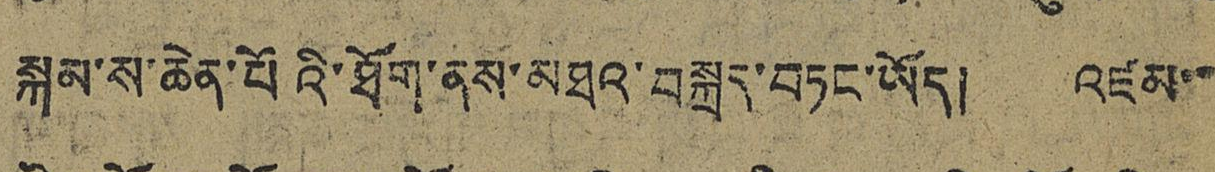སྐམ་ས་ཆེན་པོའི་ཐོག་ནས་མཐའ་བསྐྲད་བཏང་ཡོད། འཛམ་་
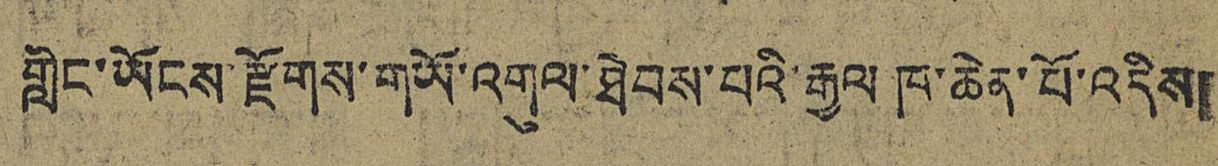གླིང་ཡོངས་རྫོགས་གཡོ་འགུལ་ཐེབས་པའི་རྒྱལ ཁ་ཆེན་པོ་འདིས།
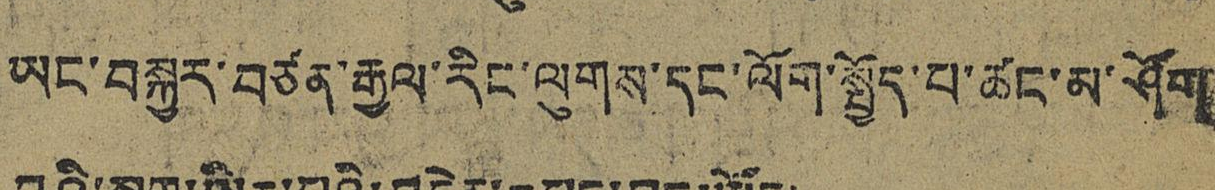ཡང་བསྐྱར་བཙན་རྒྱལ་རིང་ལུགས་དང་ལོག་སྤྱོད་པ་ཚང་མ་ཤོག་
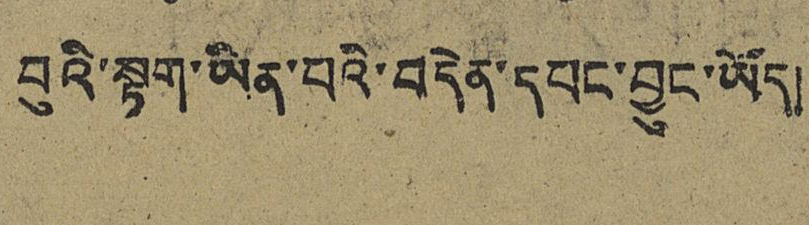བུའི་སྟག་ཡིན་པའི་བདེན་དཔང་བྱུང་ཡོད།
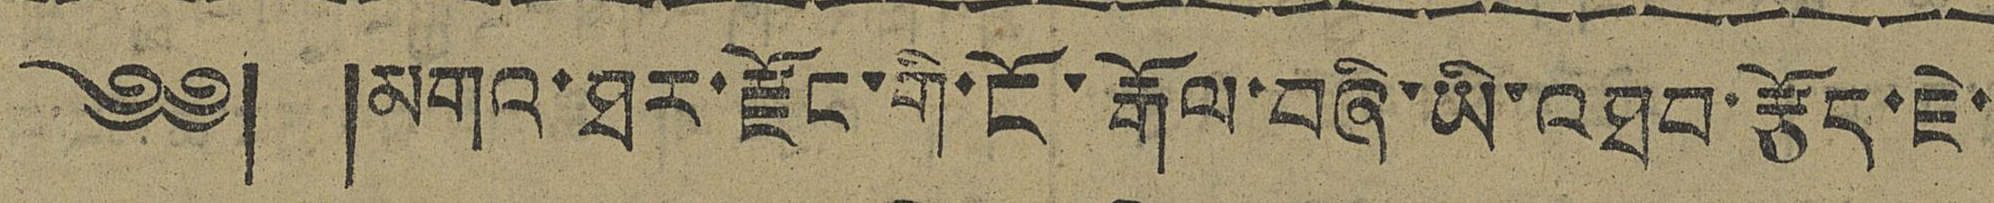༄༅། །མགའ་ཐར་རྫོང་གི་ངོ་རྒོལ་བཞི་ཡི་འཐབ་རྩོད་ཇེ་
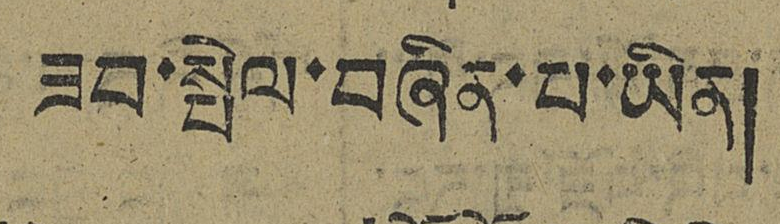ཟབ་སྤེལ་བཞིན་པ་ཡིན།
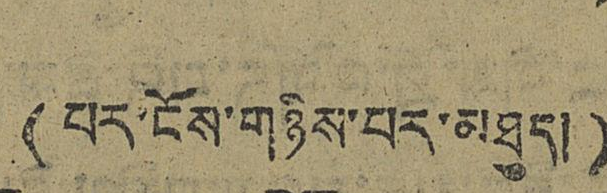(པར་ངོས་གཉིས་པར་མཐུད།)
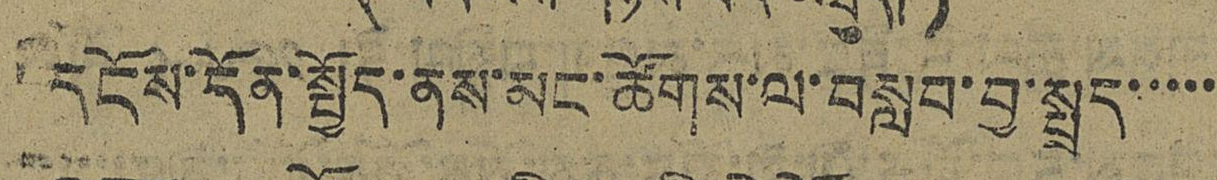དངོས་དོན་སྤྱོད་ནས་མང་ཚོགས་ལ་བསླབ་བྱ་སྤྲད་་་་་
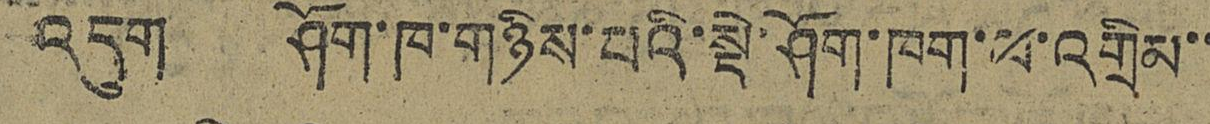འདུག ཤོག་ཁ་གཉིས་པའི་སྡེ་ཤོག་ཁག་ཕ་འགྲིམ་
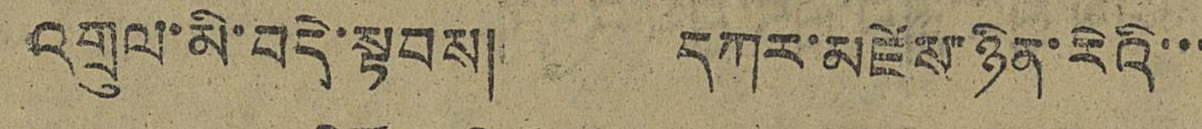འགྲུལ་མི་བདེ་སྟབས། དཀར་མཛེས་ཉིན་རེའི་་་
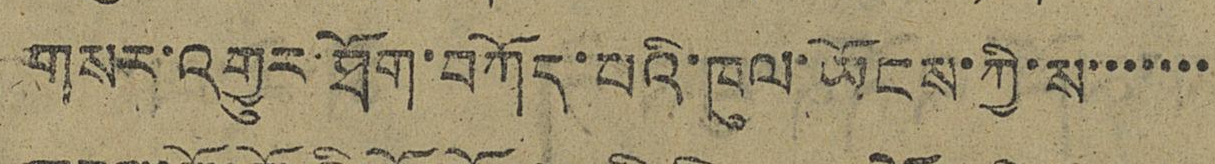གསར་འགྱུར་ཐོག་བཀོད་པའི་ཁུལ་ཡོངས་ཀྱི་ས་་་་་་་
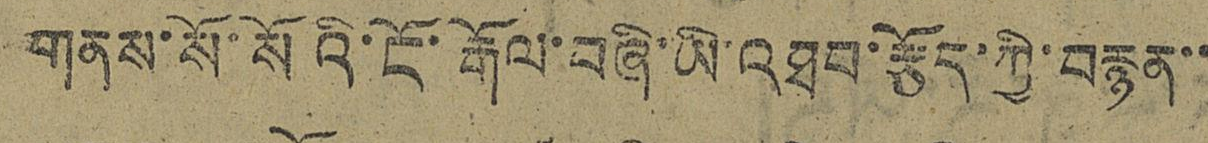གནས་སོ་སོའི་ངོ་རྒོལ་བཞི་ཡི་འཐབ་རྩོད་ཀྱི་བརྙན་་
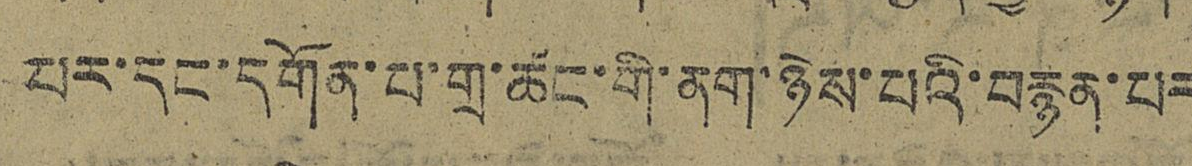པར་དང་དགོན་པ་གྲ་ཚང་གི་ནག་ཉེས་པའི་བརྙན་པར
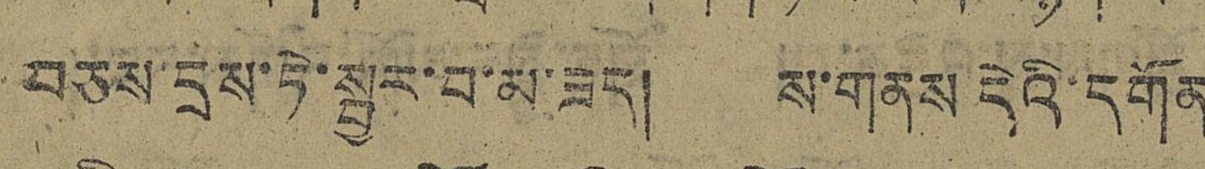བཅས་དྲས་ཏེ་སྦྱར་བ་མ་ཟད། ས་གནས་དེའི་དགོན
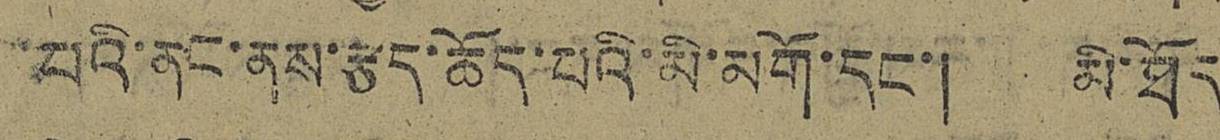པའི་ནང་ནས་རྩད་ཆོད་པའི་མི་མགོ་དང་། མི་ཐོད
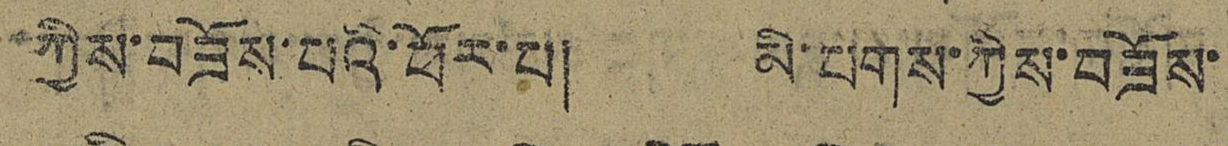ཀྱིས་བཟོས་པའི་ཕོར་པ། མི་པགས་ཀྱིས་བཟོས་
